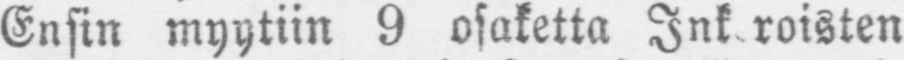Ensin myytiin 9 osaketta Inkeroisten
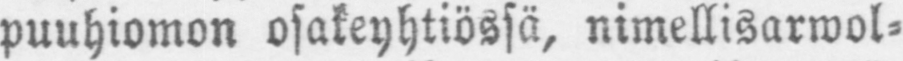puuhiomon osakeyhtiössä, nimellisarwol-
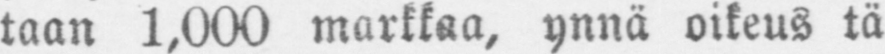taan 1,000 markkaa, ynnä oikeus tä-
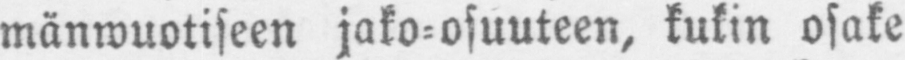mänwuotiseen jako-osuuteen, kukin osake
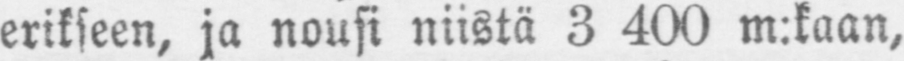erikseen, ja nousi niistä 3 400 m:kaan,
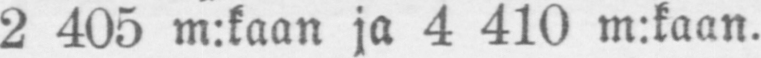2 405 m:kaan ja 4 410 m:kaan.
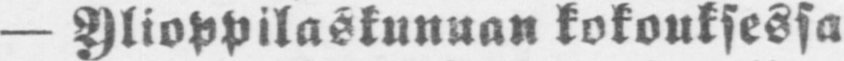— Ylioppilaskunnan kokouksessa
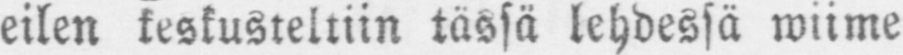eilen keskusteltiin tässä lehdessä wiime
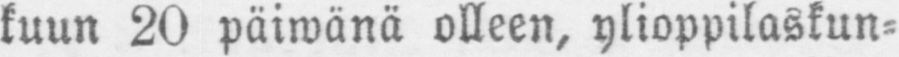kuun 20 päiwänä olleen, ylioppilaskun-
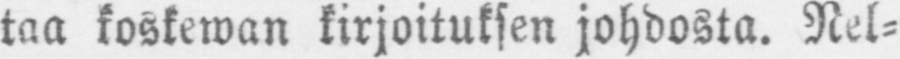taa koskewan kirjoituksen johdosta. Nel-
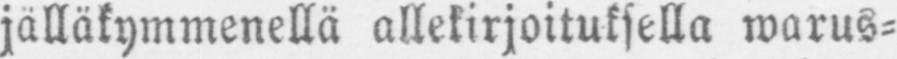jälläkymmenellä allekirjoituksella warus-
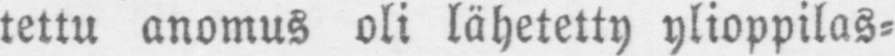tettu anomus oli lähetetty ylioppilas-
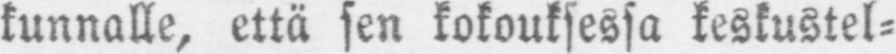kunnalle, että sen kokouksessa keskustel-
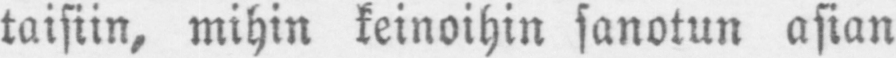taisiin, mihin keinoihin sanotun asian
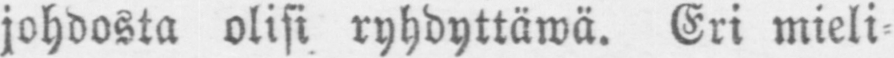johdosta olisi ryhdyttäwä. Eri mieli-
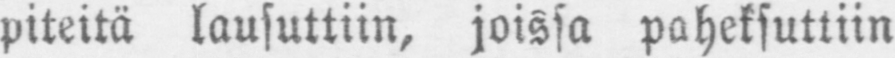piteitä lausuttiin, joissa paheksuttiin
